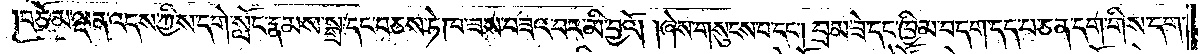།བཅོམ་ལྡན་འདས་ཀྱིས་དགེ་སློང་རྣམས་སྒྲ་དང་བཅས་ཏེ་ཁ་ཟས་བཟའ་བར་མི་བྱའོ། །ཞེས་གསུངས་པ་དང༌། བྲམ་ཟེ་དང་ཁྱིམ་བདག་དད་པ་ཅན་དག་གིས་དགེ་
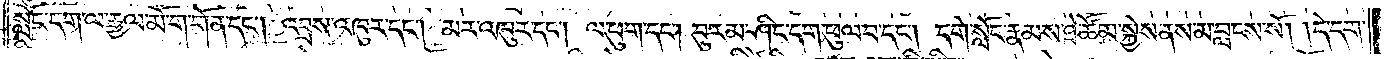སློང་དག་ལ་རྒྱལ་མོ་ག་གོན་དང༌། འབྲས་འཁུར་དང༌། མར་འཁུར་དང༌། ལ་ཕུག་དང༌། བུ་རམ་ཤིང་དག་ཕུལ་བ་དང༌། དགེ་སློང་རྣམས་ཐེ་ཚོམ་སྐྱེས་ནས་མ་བླངས་སོ། །དེ་དག་
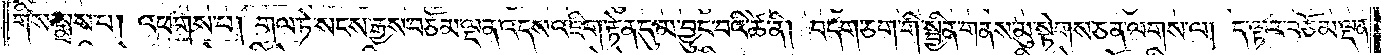གིས་སྨྲས་པ། འཕགས་པ། གལ་ཏེ་སངས་རྒྱས་བཅོམ་ལྡན་འདས་འཇིག་རྟེན་དུ་མ་བྱུང་བའི་ཚེ་ནི། བདག་ཅག་གི་སྦྱིན་གནས་མུ་སྟེགས་ཅན་ལགས་ལ། ད་ལྟར་བཅོམ་ལྡན་
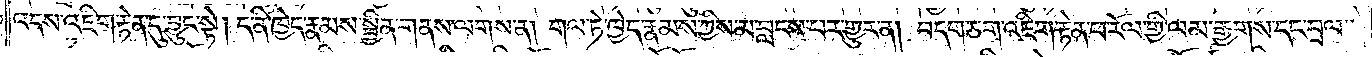འདས་འཇིག་རྟེན་དུ་བྱུང་སྟེ། ད་ནི་ཁྱེད་རྣམས་སྦྱིན་གནས་ལགས་ན། གལ་ཏེ་ཁྱེད་རྣམས་ཀྱིས་མ་བླངས་པར་གྱུར་ན། བདག་ཅག་འཇིག་རྟེན་ཕ་རོལ་གྱི་ལམ་རྒྱགས་དང་བྲལ་
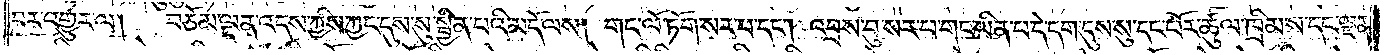བར་འགྱུར་ལ། བཅོམ་ལྡན་འདས་ཀྱིས་ཀྱང་དུས་སུ་སྦྱིན་པའི་མདོ་ལས། གང་ལོ་ཏོག་སར་པ་དང༌། འབྲས་བུ་སར་པ་གང་ཡིན་པ་དེ་དག་དུས་སུ་དང་པོར་ཚུལ་ཁྲིམས་དང་ལྡན་
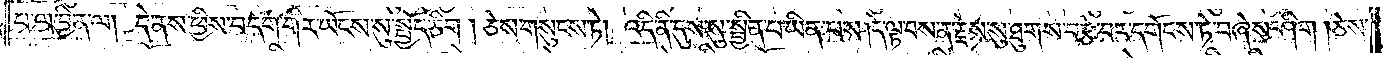པ་ལ་བྱིན་ལ། དེ་ནས་ཕྱིས་བདག་གིར་ཡོངས་སུ་སྤྱོད་ཅིག །ཅེས་གསུངས་ཏེ། འདི་ནི་དུས་སུ་སྦྱིན་པ་ཡིན་པས། དེ་ལྟ་བས་ན་རྗེས་སུ་ཐུགས་བརྩེ་བར་དགོངས་ཏེ་བཞེས་ཤིག །ཅེས་
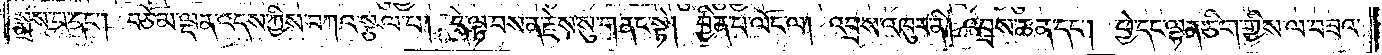སྨྲས་པ་དང༌། བཅོམ་ལྡན་འདས་ཀྱིས་བཀའ་སྩལ་པ། དེ་ལྟ་བས་ན་རྗེས་སུ་གནང་སྟེ། བྱིན་པ་ལོང་ལ། འབྲས་འཁུར་ནི། འབྲས་ཆན་དང༌། ཕྱེ་དང་ལྷན་ཅིག་གྱིས་ལ་བཟའ་
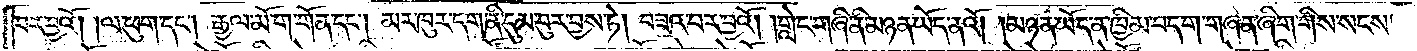བར་བྱའོ། །ལ་ཕུག་དང༌། རྒྱལ་མོ་ག་གོན་དང༌། མར་ཁུར་དག་ནི་དུམ་བུར་བྱས་ཏེ། བཟའ་བར་བྱའོ། །གླེང་གཞི་ནི་མཉན་ཡོད་ནའོ། །མཉན་ཡོད་ན་ཁྱིམ་བདག་གཞན་ཞིག་གིས་སངས་
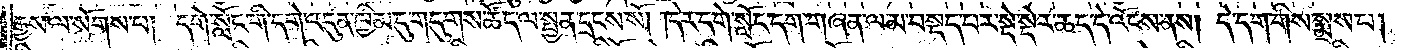རྒྱས་ལ་སོགས་པ། དགེ་སློང་གི་དགེ་འདུན་ཁྱིམ་དུ་གདུགས་ཚོད་ལ་སྤྱན་དྲངས་སོ། །དེར་དགེ་སློང་དག་གཞན་ལམ་བསྡད་པར་སྡེ་སྡེར་ཆད་དེ་འོངས་ནས། དེ་དག་གིས་སྨྲས་པ།
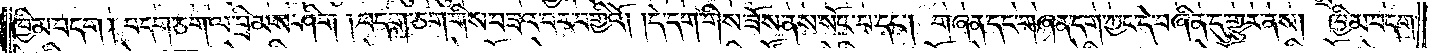ཁྱིམ་བདག །བདག་ཅག་ལ་བྲིམས་ཤིག །བདག་ཅག་གིས་བཟའ་བར་བགྱིའོ། །དེ་དག་གིས་ཟོས་ནས་སོང་པ་དང༌། གཞན་དང་གཞན་དག་ཀྱང་དེ་བཞིན་དུ་གྱུར་ནས། ཁྱིམ་བདག་
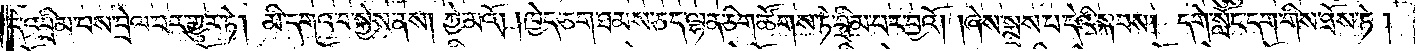དེ་འབྲིམ་བས་བྲེལ་བར་གྱུར་ཏེ། མི་དགའ་བ་སྐྱེས་ནས། ཀྱེ་མའོ། །ཁྱེད་ཅག་ཐམས་ཅད་ལྷན་ཅིག་ཚོགས་ཏེ་བྲིམ་བར་བྱའོ། །ཞེས་སྨྲས་པ་དེའི་སྐབས། དགེ་སློང་དག་གིས་ཐོས་ཏེ།
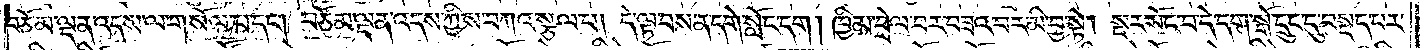བཅོམ་ལྡན་འདས་ལ་གསོལ་པ་དང༌། བཅོམ་ལྡན་འདས་ཀྱིས་བཀའ་སྩལ་པ། དེ་ལྟ་བས་ན་དགེ་སློང་དག །ཁྱིམ་བྲེལ་བར་བཟའ་བར་མི་བྱ་སྟེ། སྔར་སོང་བ་དེ་དག་སྒོ་དྲུང་དུ་བསྡད་པར་
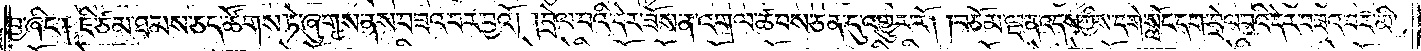བྱ་ཞིང༌། ཇི་ཙམ་ཐམས་ཅད་ཚོགས་ཏེ་ཞུགས་ནས་བཟའ་བར་བྱའོ། །བྲེལ་བའི་དེར་ཟོས་ན་འགལ་ཚབས་ཅན་དུ་འགྱུར་རོ། །བཅོམ་ལྡན་འདས་ཀྱིས་དགེ་སློང་དག་བྲེལ་བའི་དེར་བཟའ་བར་མི་
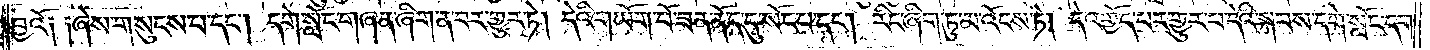བྱའོ༑ ༑ཞེས་གསུངས་པ་དང༌། དགེ་སློང་གཞན་ཞིག་ན་བར་གྱུར་ཏེ། དེའི་གཡོག་པོ་ཟན་ནོད་དུ་སོང་པ་དང༌། རིང་ཞིག་ཏུ་མ་འོངས་ཏེ། དེ་འགྱོད་པར་གྱུར་པ་དེའི་སྐབས་དགེ་སློང་དག་
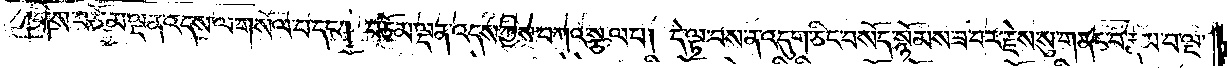གིས་བཅོམ་ལྡན་འདས་ལ་གསོལ་བ་དང༌། བཅོམ་ལྡན་འདས་ཀྱིས་བཀའ་སྩལ་པ། དེ་ལྟ་བས་ན་འདུག་ཅིང་བསོད་སྙོམས་ཟ་བར་རྗེས་སུ་གནང་བ་རྣམ་བ་ལྔ་
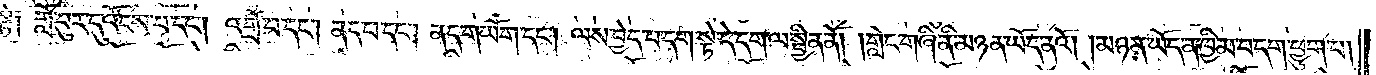སྟེ། གློ་བུར་དུ་འོངས་པ་དང༌། འགྲོ་བ་དང༌། ནད་པ་དང༌། ནད་གཡོག་དང༌། ལས་བྱེད་པ་དག་སྟེ་དེ་དག་ལ་སྦྱིན་ནོ། །གླེང་གཞི་ནི་མཉན་ཡོད་ནའོ། །མཉན་ཡོད་ན་ཁྱིམ་བདག་ཕྱུག་པ།
